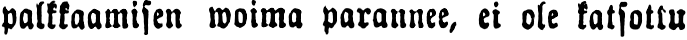palkkaamisen woima parannee, ei ole katsottu
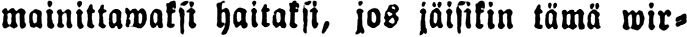mainittawaksi haitaksi, jos jäisikin tämä wir-
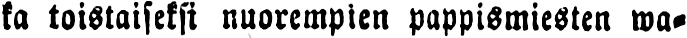ka toistaiseksi nuorempien pappismiesten wa-
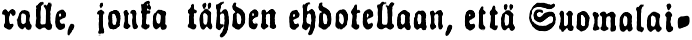ralle, jonka tähden ehdotellaan, että Suomalai-
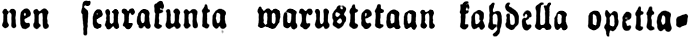nen seurakunta warustetaan kahdella opetta-
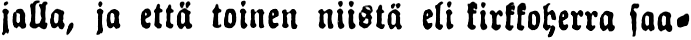jalla, ja että toinen niistä eli kirkkoherra saa-
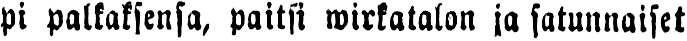pi palkaksensa, paitsi wirkatalon ja satunnaiset
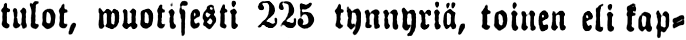tulot, wuotisesti 225 tynnyriä, toinen eli kap-
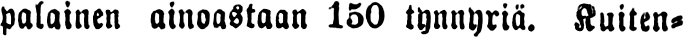palainen ainoastaan 150 tynnyriä. Kuiten-
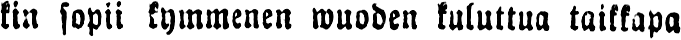kin sopii kymmenen wuoden kuluttua taikkapa
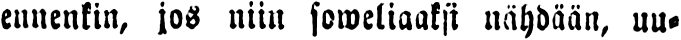ennenkin, jos niin soweliaaksi nähdään, uu-
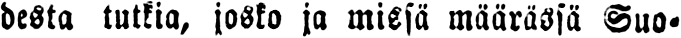desta tutkia, josko ja missä määrässä Suo-
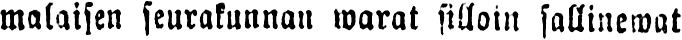malaisen seurakunnan warat silloin sallinewat
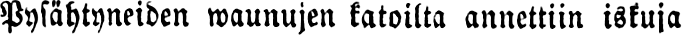Pysähtyneiden waunujen katoilta annettiin iskuja
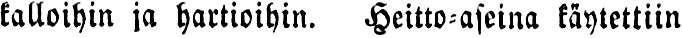kalloihin ja hartioihin. Heitto-aseina käytettiin
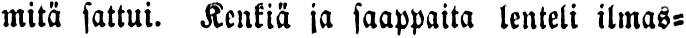mitä sattui. Kenkiä ja saappaita lenteli ilmas-
